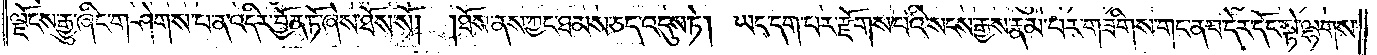ལྗོངས་རྒྱུ་ཞིང་གཤེགས་པ་ན་འདིར་བྱོན་ཏོ་ཞེས་ཐོས་སོ། །ཐོས་ནས་ཀྱང་ཐམས་ཅད་འདུས་ཏེ། ཡང་དག་པར་རྫོགས་པའི་སངས་རྒྱས་རྣམ་པར་གཟིགས་གང་ན་བ་དེར་དོང་སྟེ་ལྷགས་
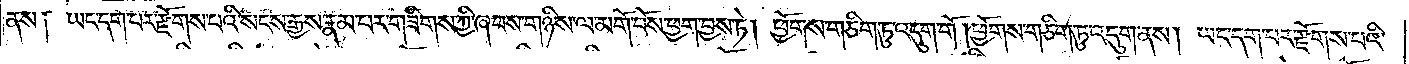ནས། ཡང་དག་པར་རྫོགས་པའི་སངས་རྒྱས་རྣམ་པར་གཟིགས་ཀྱི་ཞབས་གཉིས་ལ་མགོ་བོས་ཕྱག་བྱས་ཏེ། ཕྱོགས་གཅིག་ཏུ་འདུག་གོ །ཕྱོགས་གཅིག་ཏུ་འདུག་ནས། ཡང་དག་པར་རྫོགས་པའི་
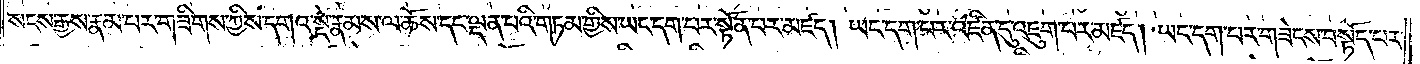སངས་རྒྱས་རྣམ་པར་གཟིགས་ཀྱིས་དགའ་སྡེ་རྣམས་ལ་ཆོས་དང་ལྡན་པའི་གཏམ་གྱིས་ཡང་དག་པར་སྟོན་པར་མཛད། ཡང་དག་པར་འཛིན་དུ་འཇུག་པར་མཛད། ཡང་དག་པར་གཟེངས་བསྟོད་པར་
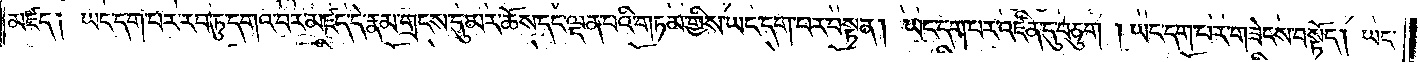མཛད། ཡང་དག་པར་རབ་ཏུ་དགའ་བར་མཛད་དེ་རྣམ་གྲངས་དུ་མར་ཆོས་དང་ལྡན་པའི་གཏམ་གྱིས་ཡང་དག་པར་བསྟན། ཡང་དག་པར་འཛིན་དུ་བཅུག །ཡང་དག་པར་གཟེངས་བསྟོད། ཡང་
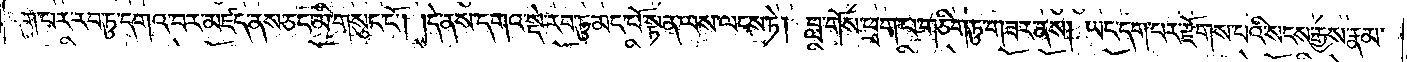དག་པར་རབ་ཏུ་དགའ་བར་མཛད་ནས་ཅང་མི་གསུང་ངོ༌། །དེ་ནས་དགའ་སྡེ་རབ་ཏུ་མང་པོ་སྟན་ལས་ལངས་ཏེ།  བླ་གོས་ཕྲག་པ་གཅིག་ཏུ་གཟར་ནས། ཡང་དག་པར་རྫོགས་པའི་སངས་རྒྱས་རྣམ་
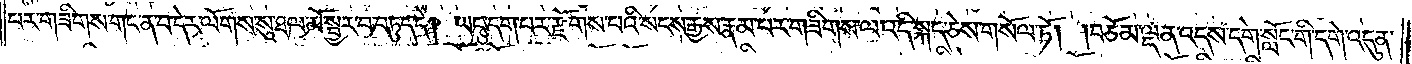པར་གཟིགས་གང་ན་བ་དེར་ལོགས་སུ་ཐལ་མོ་སྦྱར་བ་བཏུད་དེ། ཡང་དག་པར་རྫོགས་པའི་སངས་རྒྱས་རྣམ་པར་གཟིགས་ལ་འདི་སྐད་ཅེས་གསོལ་ཏོ། །བཅོམ་ལྡན་འདས་དགེ་སློང་གི་དགེ་འདུན་
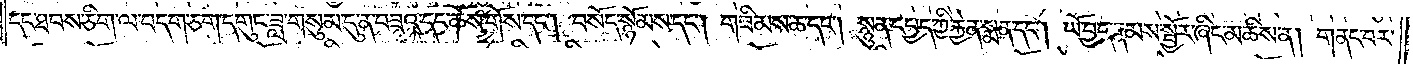དང་ཐབས་ཅིག་ལ་བདག་ཅག་དགུང་ཟླ་གསུམ་དུ་ན་བཟའ་དང་ཆོས་གོས་དང༌། བསོད་སྙོམས་དང༌། གཟིམས་ཆ་དང༌། སྙུན་དཔྱད་ཀྱི་རྐྱེན་སྨན་དང༌། ཡོ་བྱད་རྣམས་སྦྱོར་ཞིང་མཆིས་ན། གནང་བར་
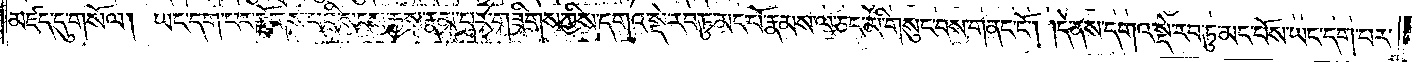མཛད་དུ་གསོལ། ཡང་དག་པར་རྫོགས་པའི་སངས་རྒྱས་རྣམ་པར་གཟིགས་ཀྱིས་དགའ་སྡེ་རབ་ཏུ་མང་པོ་རྣམས་ལ་ཅང་མི་གསུང་བས་གནང་ངོ༌། །དེ་ནས་དགའ་སྡེ་རབ་ཏུ་མང་པོས་ཡང་དག་པར་
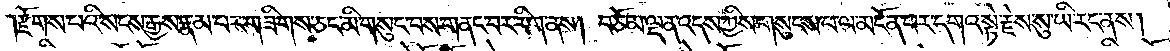རྫོགས་པའི་སངས་རྒྱས་རྣམ་པར་གཟིགས་ཅང་མི་གསུང་བས་གནང་བར་རིག་ནས། བཅོམ་ལྡན་འདས་ཀྱིས་གསུངས་པ་ལ་མངོན་པར་དགའ་སྟེ་རྗེས་སུ་ཡི་རང་ནས།
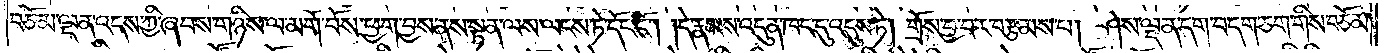བཅོམ་ལྡན་འདས་ཀྱི་ཞབས་གཉིས་ལ་མགོ་བོས་ཕྱག་བྱས་ནས་སྟན་ལས་ལངས་ཏེ་དོང་ངོ༌། །དེ་རྣམས་འདུན་ཁང་དུ་འདུས་ཏེ། གྲོས་བྱ་བར་བརྩམས་པ། ཤེས་ལྡན་དག་བདག་ཅག་གིས་བཅོམ་
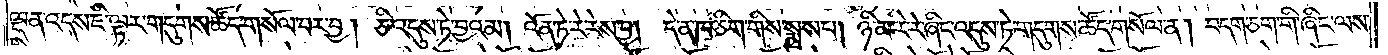ལྡན་འདས་ཇི་ལྟར་གདུགས་ཚོད་གསོལ་བར་བྱ། ཅི་འདུས་ཏེ་བྱའམ། འོན་ཏེ་རེ་རེས་བྱ། དེ་ན་ཁ་ཅིག་གིས་སྨྲས་པ། ཉི་མ་རེ་རེ་ཞིང་འདུས་ཏེ་གདུགས་ཚོད་གསོལ་ན། བདག་ཅག་གི་ཞིང་ལས་
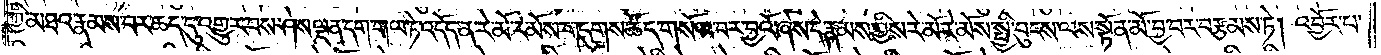ཀྱི་མཐའ་རྣམས་བར་ཆད་དུ་འགྱུར་བས་ཤེས་ལྡན་དག་གལ་ཏེ་འདོད་ན་རེ་མོ་རེ་མོས་གདུགས་ཚོད་གསོལ་བར་བྱའོ་ཞེས་དེ་རྣམས་ཀྱིས་རེ་མོ་རེ་མོས་སྤྱི་བུངས་ལས་སྟོན་མོ་བྱ་བར་བརྩམས་ཏེ། འབྱོར་བ་
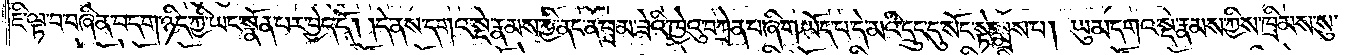ཇི་ལྟ་བ་བཞིན་བདག་ཉིད་ཀྱི་ཡང་སྣོན་པར་བྱེད་དོ། །དེ་ནས་དགའ་སྡེ་རྣམས་ཀྱི་ནང་ན་བྲམ་ཟེའི་ཁྱེའུ་བཀྲེན་པ་ཞིག་ཡོད་པ་དེ་མའི་དྲུང་དུ་སོང་སྟེ་སྨྲས་པ། ཡུམ་དགའ་སྡེ་རྣམས་ཀྱིས་ཁྲིམས་སུ་
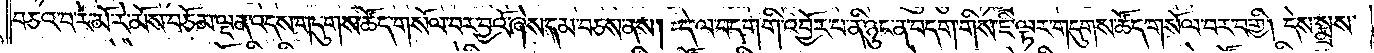བཅའ་བ་རེ་མོ་རེ་མོས་བཅོམ་ལྡན་འདས་གདུགས་ཚོད་གསོལ་བར་བྱའོ་ཞེས་དམ་བཅས་ནས། དེ་ལ་བདག་གི་འབྱོར་པ་ནི་ཉུང་ན་བདག་གིས་ཇི་ལྟར་གདུགས་ཚོད་གསོལ་བར་བགྱི། དེས་སྨྲས་
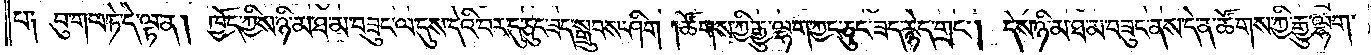པ༑ བུ་གལ་ཏེ་དེ་ལྟ་ན། ཁྱོད་ཀྱིས་ཉི་མ་ཐ་མ་བཟུང་ལ་དུས་དེའི་བར་དུ་ཅུང་ཟད་སྒྲུབས་ཤིག །ཚོགས་ཀྱི་རྒྱུ་ལྷག་ཀྱང་ཅུང་ཟད་རྙེད་གྲང༌། དེས་ཉི་མ་ཐ་མ་བཟུང་ནས་དེ་ན་ཚོགས་ཀྱི་རྒྱུ་ལྷག་
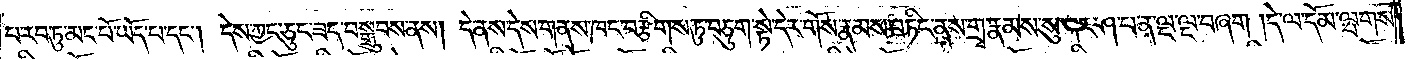པ་རབ་ཏུ་མང་པོ་ཡོད་པ་དང༌། དེས་ཀྱང་ཅུང་ཟད་བསྒྲུབས་ནས། དེ་ནས་དེས་གནས་ཁང་བརྩིགས་ཏུ་བཅུག་སྟེ་དེར་གོས་རྣམས་བཏིང་ནས་གྲྭ་རྣམས་སུ་ཀར་ཤ་པ་ན་ལྔ་ལྔ་བཞག །དེ་ལ་དོམ་ལྤགས་
